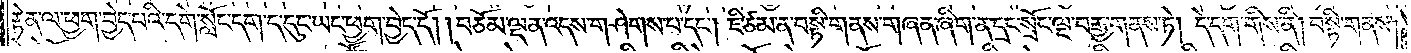རྟེན་ལ་ཕྱག་བྱེད་པའི་དགེ་སློང་དག་ད་དུང་ཡང་ཕྱག་བྱེད་དོ། །བཅོམ་ལྡན་འདས་གཤེགས་པ་དང༌། ཇི་ཙམ་ན་བསྟི་གནས་གཞན་ཞིག་ན་དྲང་སྲོང་ལྔ་བརྒྱ་གནས་ཏེ། དེ་དག་གིས་ནི། བསྟི་གནས་
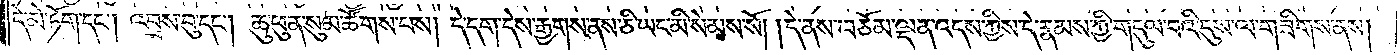དེ་མེ་ཏོག་དང༌། འབྲས་བུ་དང༌། ཆུ་ཕུན་སུམ་ཚོགས་པས། དེ་དག་དེས་རྒྱ་གས་ནས་ཅི་ཡང་མི་སེམས་སོ། །དེ་ནས་བཅོམ་ལྡན་འདས་ཀྱིས་དེ་རྣམས་ཀྱི་གདུལ་བའི་དུས་ལ་གཟིགས་ནས།
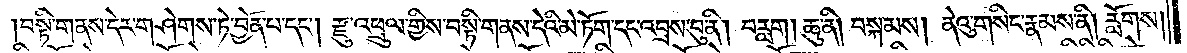བསྟི་གནས་དེར་གཤེགས་ཏེ་བྱོན་པ་དང༌། རྫུ་འཕྲུལ་གྱིས་བསྟི་གནས་དེའི་མེ་ཏོག་དང་འབྲས་བུ་ནི། བརླག །ཆུ་ནི། བསྐམས། ནེའུ་གསིང་རྣམས་ནི། རློགས་
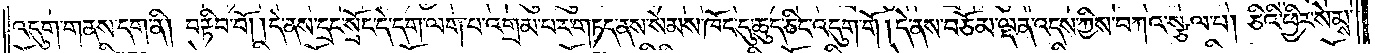འདུག་གནས་དག་ནི། བརྟིབ་བོ། །དེ་ནས་དྲང་སྲོང་དེ་དག་ལག་པ་འགྲམ་པར་གཏད་ནས་སེམས་ཁོང་དུ་ཆུད་ཅིང་འདུག་གོ །དེ་ནས་བཅོམ་ལྡན་འདས་ཀྱིས་བཀའ་སྩལ་པ། ཅིའི་ཕྱིར་སེམས་
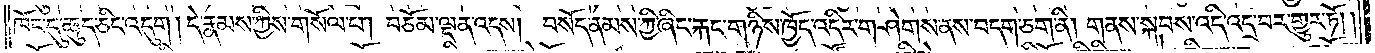ཁོང་དུ་ཆུད་ཅིང་འདུག །དེ་རྣམས་ཀྱིས་གསོལ་པ། བཅོམ་ལྡན་འདས། བསོད་ནམས་ཀྱི་ཞིང་རྐང་གཉིས་ཁྱོད་འདིར་གཤེགས་ནས་བདག་ཅག་ནི། གནས་སྐབས་འདི་འདྲ་བར་གྱུར་ཏོ། །
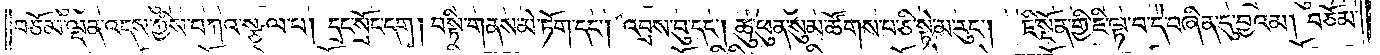བཅོམ་ལྡན་འདས་ཀྱིས་བཀའ་སྩལ་པ། དྲང་སྲོང་དག །བསྟི་གནས་མེ་ཏོག་དང༌། འབྲས་བུ་དང༌། ཆུ་ཕུན་སུམ་ཚོགས་པ་ཅི་སྟེ་མ་རུང༌། ཇི་སྔོན་གྱི་ཇི་ལྟ་བ་དེ་བཞིན་དུ་བྱའམ། བཅོམ་
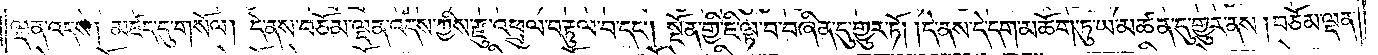ལྡན་འདས། མཛད་དུ་གསོལ། དེ་ནས་བཅོམ་ལྡན་འདས་ཀྱིས་རྫུ་འཕྲུལ་བརྟུལ་བ་དང༌། སྔོན་གྱི་ཇི་ལྟ་བ་བཞིན་དུ་གྱུར་ཏོ། །དེ་ནས་དེ་དག་མཆོག་ཏུ་ཡ་མཚན་དུ་གྱུར་ནས། བཅོམ་ལྡན་
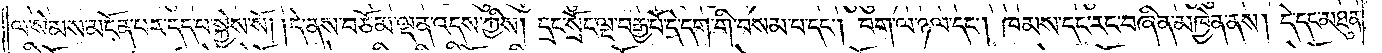ལ་སེམས་མངོན་པར་དད་པ་སྐྱེས་སོ། །དེ་ནས་བཅོམ་ལྡན་འདས་ཀྱིས། དྲང་སྲོང་ལྔ་བརྒྱ་པོ་དེ་དག་གི་བསམ་པ་དང༌། བག་ལ་ཉལ་དང༌། ཁམས་དང་རང་བཞིན་མཁྱེན་ནས། དེ་དང་མཐུན་
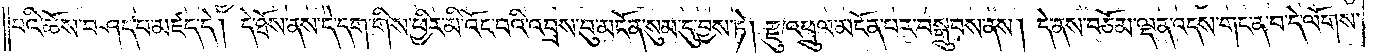པའི་ཆོས་བཤད་པ་མཛད་དེ། དེ་ཐོས་ནས་དེ་དག་གིས་ཕྱིར་མི་འོང་བའི་འབྲས་བུ་མངོན་སུམ་དུ་བྱས་ཏེ། རྫུ་འཕྲུལ་མངོན་པར་བསྒྲུབས་ནས། དེ་ནས་བཅོམ་ལྡན་འདས་གང་ན་བ་དེ་ལོགས་
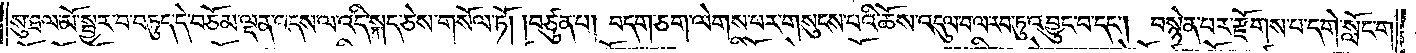སུ་ཐལ་མོ་སྦྱར་བ་བཏུད་དེ་བཅོམ་ལྡན་འདས་ལ་འདི་སྐད་ཅེས་གསོལ་ཏོ། །བཙུན་པ། བདག་ཅག་ལེགས་པར་གསུངས་པའི་ཆོས་འདུལ་བ་ལ་རབ་ཏུ་འབྱུང་བ་དང༌། བསྙེན་པར་རྫོགས་པ་དགེ་སློང་བ།
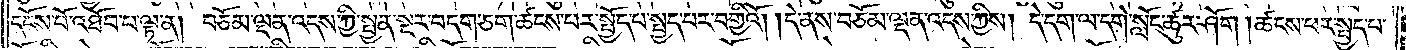དངོས་པོ་འཐོབ་པ་ལྟ་ན། བཅོམ་ལྡན་འདས་ཀྱི་སྤྱན་སྔར་བདག་ཅག་ཚངས་པར་སྤྱོད་པ་སྤྱད་པར་བགྱིའོ། །དེ་ནས་བཅོམ་ལྡན་འདས་ཀྱིས། དེ་དག་ལ་དགེ་སློང་ཚུར་ཤོག །ཚངས་པར་སྤྱད་པ་
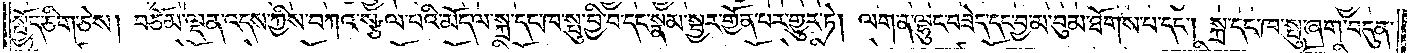སྤྱོད་ཅིག་ཅེས། བཅོམ་ལྡན་འདས་ཀྱིས་བཀའ་སྩལ་པའི་མོད་ལ་སྐྲ་དང་ཁ་སྤུ་བྱི་བ་དང་སྣམ་སྦྱར་གྱོན་པར་གྱུར་ཏེ། ལག་ན་ལྷུང་བཟེད་དང་བྱ་མ་བུམ་ཐོགས་པ་དང༌། སྐྲ་དང་ཁ་སྤུ་ཞག་བདུན་
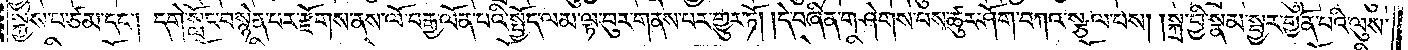སྐྱེས་པ་ཙམ་དང༌། དགེ་སློང་བསྙེན་པར་རྫོགས་ནས་ལོ་བརྒྱ་ལོན་པའི་སྤྱོད་ལམ་ལྟ་བུར་གནས་པར་གྱུར་ཏོ། །དེ་བཞིན་གཤེགས་པས་ཚུར་ཤོག་བཀའ་སྩལ་པས། །སྐྲ་བྱི་སྣམ་སྦྱར་གྱོན་པའི་ལུས་
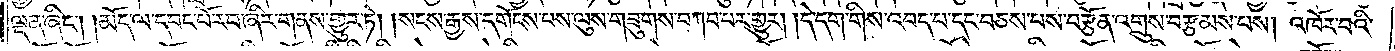ལྡན་ཞིང༌། །མོད་ལ་དབང་པོ་རབ་ཞིར་གནས་གྱུར་ཏེ། །སངས་རྒྱས་དགོངས་པས་ལུས་གཟུགས་བཀའ་བར་གྱུར། །དེ་དག་གིས་འབད་པ་དང་བཅས་པས་བརྩོན་འགྲུས་བརྩམས་པས། འཁོར་བའི་
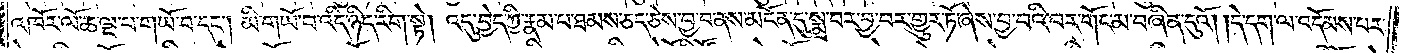འཁོར་ལོ་ཆ་ལྔ་པ་གཡོ་བ་དང༌། མི་གཡོ་བ་འདི་ཉིད་རིག་སྟེ། འདུ་བྱེད་ཀྱི་རྣམ་པ་ཐམས་ཅད་ཅེས་བྱ་བ་ནས་མངོན་དུ་སྨྲ་བར་བྱ་བར་གྱུར་ཏོ་ཞེས་བྱ་བའི་བར་གོང་མ་བཞིན་དུའོ། །དེ་དག་ལ་འདོམས་པར་
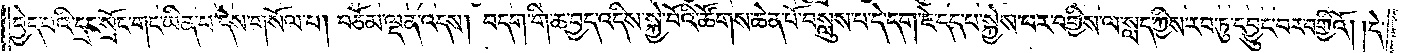བྱེད་པའི་དྲང་སྲོང་གང་ཡིན་པ་དེས་གསོལ་པ། བཅོམ་ལྡན་འདས། བདག་གི་ཆ་བྱད་འདིས་སྐྱེ་བོའི་ཚོགས་ཆེན་པོ་བསླུས་པ་དེ་དག་ཇེ་དད་པ་སྐྱེས་པར་བགྱིས་ལ་སླད་ཀྱིས་རབ་ཏུ་དབྱུང་བར་བགྱིའོ། །དེ་
